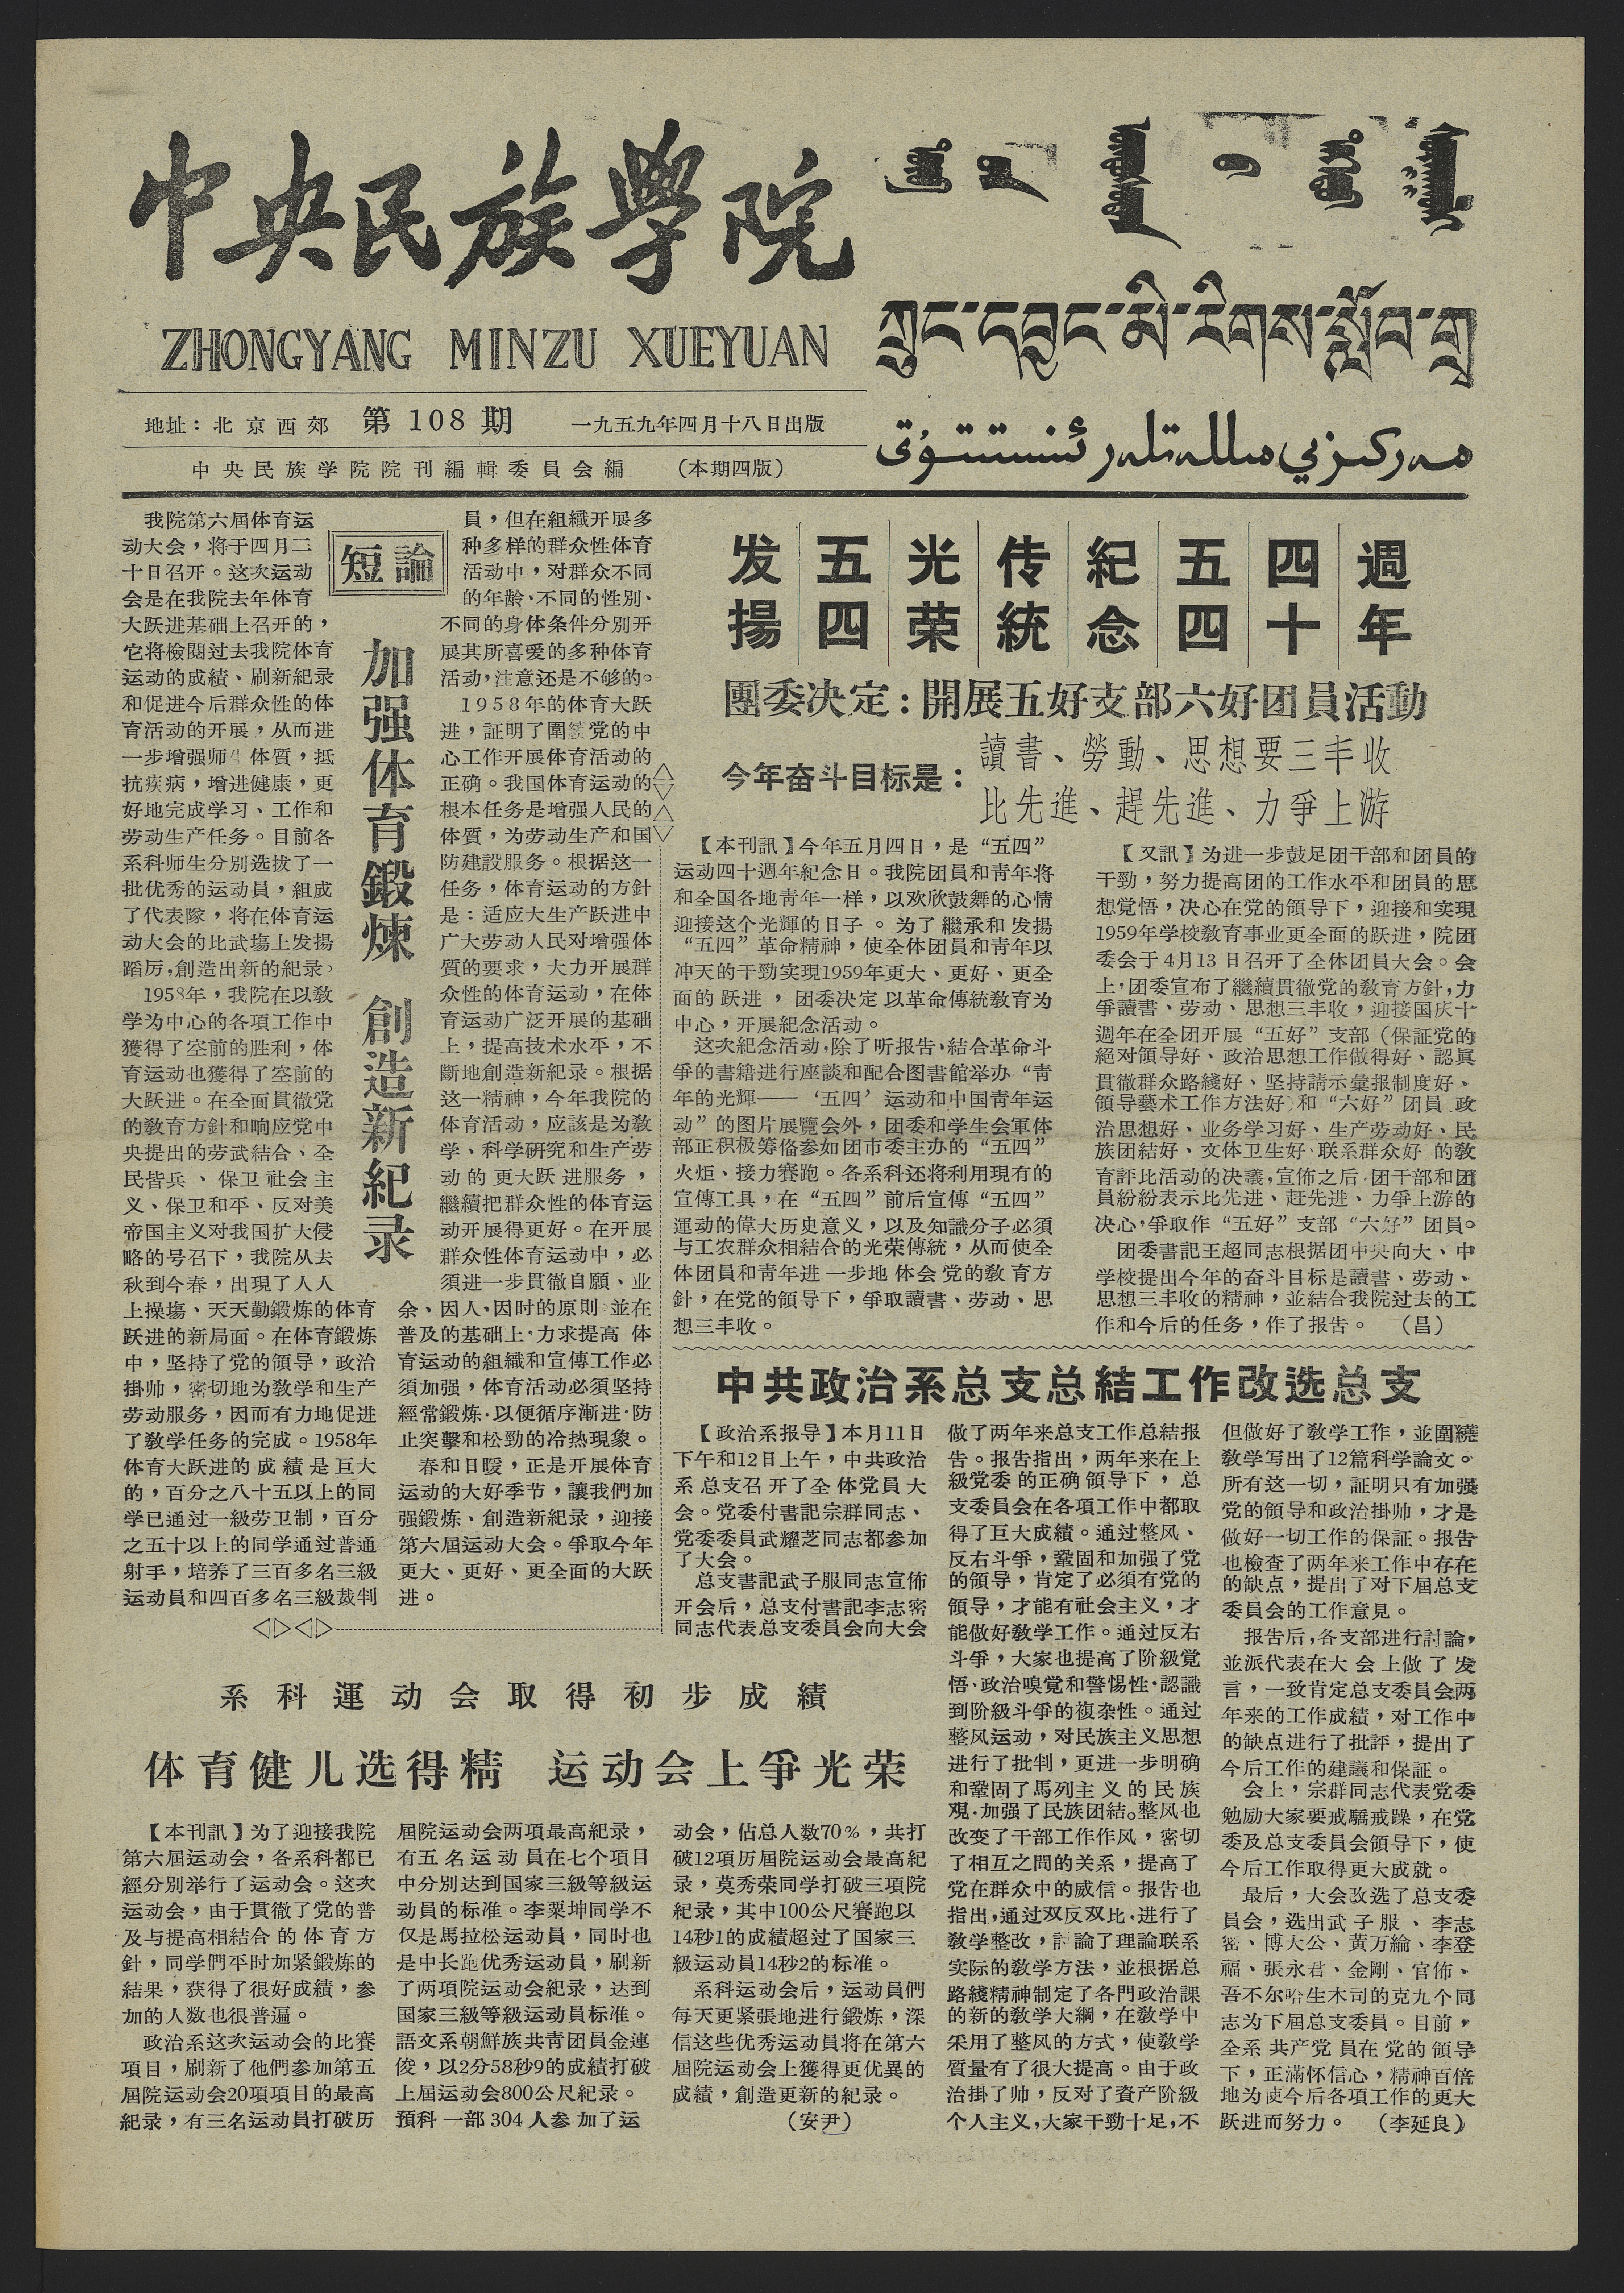中央民族學院
ZHONGYANG MINZU XUEYUAN
ᠲᠥᠪ ᠦᠨ ᠦᠨᠳᠦᠰᠦᠲᠡᠨ ᠦ ᠳᠡᠭᠡᠳᠦ ᠰᠤᠷᠭᠠᠭᠤᠯᠢ
ཀྲུང་དབྱང་མི་རིགས་སློབ་གྲྭ
مەركىزىي مىللەتلەر ئىنستىتۇتى
地址：北 京 西 郊 第 108 期 一九五九年四月十八日出版
中央民族学院院刊編輯委員會編 （本期四版）
短論
加強体育鍛煉 創造新紀录
我院第六屆体育运
动大会，将于四月二
十日召开。这次运动
会是在我院去年体育
大跃进基础上召开的，
他将檢閱过去我院体育
运动的成績、刷新紀录
和促进今后群众性的体
育活动的开展，从而进
一步增强师生体質，抵
抗疾病，增进健康，更
好地完成学习、工作和
劳动生产任务。目前各
系科师生分别选拔了一
批优秀的运动員，組成
了代表隊，将在体育运
动大会的比武塲上发揚
蹈厉，創造出新的紀录。
1958年，我院在以敎
学为中心的各項工作中
獲得了空前地胜利，体
育运动也獲得了空前的
大跃进。在全面貫徹党
的敎育方針和响应党中
央提出的劳武結合、全
民皆兵 、保卫 社会 主
义、保卫和平、反对美
帝国主义对我国扩大侵
略的号召下，我院从去
秋到今春，出現了人人
上操塲、天天勤鍛炼的体育
跃进的新局面。在体育鍛炼
中，坚持了党的領导，政治
掛帅，密切地为敎学和生产
劳动服务，因而有力地促进
了敎学任务的完成。1958年
体育大跃进的成績是巨大
的，百分之八十五以上的同
学已通过一級劳卫制，百分
之五十以上的同学通过普通
射手，培养了三百多名三級
运动員和四百多名三級裁判
員，但在組織开展多
种多样的群众性体育
活动中，对群众不同
的年龄、不同的性别、
不同的身体条件分别开
展其所喜爱的多种体育
活动，注意还是不够的。
1958年的体育大跃
进，証明了圍繞党的中
心工作开展体育活动的
正确。我国体育运动的
根本任务是增强人民的
体質，为劳动生产和国
防建設服务。根据这一
任务，体育运动的方針
是：适应大生产跃进中
广大劳动人民对增强体
質的要求，大力开展群
众性的体育运动，在体
育运动广泛开展的基础
上，提高技术水平，不
斷地創造新紀录。根据
这一精神，今年我院的
体育活动，应該是为敎
学、科学研究和生产劳
动的更大跃进服务，
繼續把群众性的体育运
动开展得更好。在开展
群众性体育运动中，必
須进一步貫徹自願、业
余、因人、因时的原則並在
普及的基础上，力求提高体
育运动的組織和宣傳工作必
須加强，体育活动必須坚持
經常鍛炼，以便循序漸进，防
止突擊和松勁的冷热現象。
春和日暖，正是开展体育
运动的大好季节，讓我們加
强鍛炼、創造新紀录，迎接
第六屆运动大会。爭取今年
更大、更好、更全面的大跃
进。
发揚
五四
光荣
传統
紀念
五四
四十
週年
團委决定：開展五好支部六好团員活動
今年奋斗目标是：
讀書、勞動、思想要三丰收
比先進、趕先進、力爭上游
【本刊訊】今年五月四日，是“五四”
运动四十週年紀念日。我院团員和靑年將
和全国各地靑年一样，以欢欣鼓舞的心情
迎接这个光輝的日子。为了 繼承和 发揚
“五四”革命精神，使全体团員和靑年以
冲天的干勁实現1959年更大、更好、更全
面的跃进，团委决定以革命傳統敎育为
中心，开展紀念活动。
这次紀念活动，除了听报告、結合革命斗
爭的書籍进行座談和配合图書館举办“靑
年的光輝——‘五四’运动和中国靑年运
动”的图片展覽会外，团委和学生会軍体
部正积极筹備参加团市委主办的“五四”
火炬、接力賽跑。各系科还将利用現有的
宣傳工具，在“五四”前后宣傳“五四”
運动的偉大历史意义，以及知識分子必須
与工农群众相結合的光荣傳統，从而使全
体团員和靑年进一步地体会党的敎育方
針，在党的領导下，爭取讀書、劳动、思
想三丰收。
【又訊】为进一步鼓足团干部和团員的
干勁，努力提高团的工作水平和团員的思
想覚悟，决心在党的領导下，迎接和实現
1959年学校敎育事业更全面的跃进，院团
委会于4月13日召开了全体团員大会。会
上，团委宣布了繼續貫徹党的敎育方針，力
爭讀書、劳动、思想三丰收，迎接国庆十
週年在全团开展“五好”支部（保証党的
絕对領导好、政治思想工作做得好、認眞
貫徹群众路綫好、坚持請示彙报制度好、
領导藝术工作方法好）和“六好”团員 政
治思想好、业务学习好、生产劳动好、民
族团結好、文体卫生好、联系群众好 的敎
育評比活动的决議，宣佈之后，团干部和团
員紛紛表示比先进、赶先进、力爭上游的
决心，爭取作“五好”支部“六好”团員。
团委書記王超同志根据团中央向大、中
学校提出今年的奋斗目标是讀書、劳动、
思想三丰收的精神，並結合我院过去的工
作和今后的任务，作了报告。
（昌）
中共政治系总支总結作改选总支
【政治系报导】本月11日
下午和12日上午，中共政治
系总支召开了全体党員大
会。党委付書記宗群同志、
党委委員武耀芝同志都参加
了大会。
总支書記武子服同志宣佈
开会后，总支付書記李志密
同志代表总支委員会向大会
做了两年来总支工作总結报
告。报告指出，两年来在上
級党委的正确領导下，总
支委員会在各項工作中都取
得了巨大成績。通过整风、
反右斗爭，鞏固和加强了党
的領导，肯定了必須有党的
領导，才能有社会主义，才
能做好敎学工作。通过反右
斗爭，大家也提高了阶級覚
悟、政治嗅覚和警惕性，認識
导阶級斗爭的複杂性。通过
整风运动，对民族主义思想
进行了批判，更进一步明确
和鞏固了馬列主义的民族
覌，加强了民族团結。整风也
改变了干部工作作风，密切
了相互之間的关系，提高了
党在群众中的威信。报告也
指出，通过双反双比，进行了
敎学整改，討論了理論联系
世纪的敎学方法，並根据总
路綫精神制定了各門政治課
的新的敎学大綱，在敎学中
采用了整风的方式，使敎学
質量有了很大提高。由于政
治掛了帅，反对了資产阶級
个人主义，大家干勁十足，不
但做好了敎学工作，並圍繞
敎学写出了12篇科学論文。
所有这一切，証明只有加强
党的領导和政治掛帅，才是
做好一切工作的保証。报告
也檢查了两年来工作中存在
的缺点，提出了对下屆总支
委員会的工作意見。
报告后，各支部进行討論，
並派代表在大会上做了发
言，一致肯定总支委員会两
年来的工作成績，对工作中
的缺点进行了批評，提出了
今后工作的建議和保証。
会上，宗群同志代表党委
勉励大家要戒驕戒躁，在党
委及总支委員会領导下，使
今后工作取得更大成就。
最后，大会改选了总支委
員会，选出武子服、李志
密、博大公、黄万綸、李登
福、張永君、金剛、官佈、
吾不尔哈生木司的克九个同
志为下屆总支委員。目前，
全系共产党員在党的領导
下，正滿怀信心，精神百倍
地为使今后各項工作的更大
跃进而努力。
（李延良）
系 科 運 动 会 取 得 初 步 成 績
体育健儿选得精 运动会上争光荣
【本刊訊】为了迎接我院
第六屆运动会，各系科都已
經分别举行了运动会。这次
运动会，由于貫徹了党的普
及与提高相結合的体育方
針，同学們平时加紧鍛炼的
結果，获得了很好成績，参
加的人数也很普遍。
政治系这次运动会的比賽
項目，刷新了他們参加第五
屆员运动会20項項目的最高
紀录，有三名运动員打破历
屆员运动会两項最高紀录，
有五名运动員在七个項目
中分别达到国家三級等級运
动員的标准。李粟坤同学不
仅是馬拉松运动員，同时也
是中长跑优秀运动員，刷新
了两項员运动会紀录，达到
国家三級等級运动員标准。
語文系朝鮮族共靑团員金連
俊，以2分58秒9的成績打破
上屆运动会800公尺紀录。
預科一部304人参加了运
动会，佔总人数70％，共打
破12項历屆员运动会最高紀
录，莫秀荣同学打破三項院
紀录，其中100公尺賽跑以
14秒1的成績超过了国家三
級运动員14秒2的标准。
系科运动会后，运动員們
每天更紧張地进行鍛炼，深
信这些优秀运动員将在第六
屆院运动会上獲得更优異的
成績，創造更新的紀录。
（安尹）
